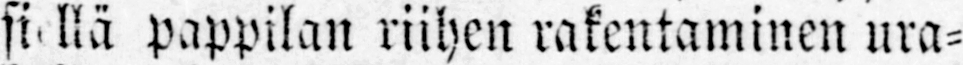siellä pappilan riihen rakentaminen ura-
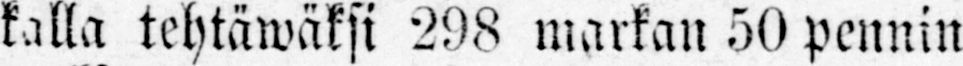kalla tehtäwäksi markan 50 pennin
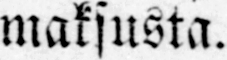maksusta.
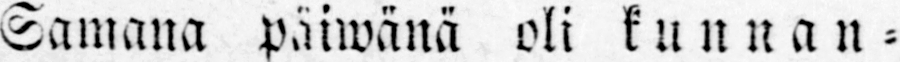Samana päiwänä oli kunnan-
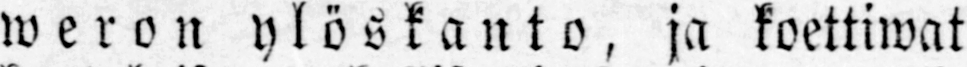weron ylöskanto, ja koettiwat
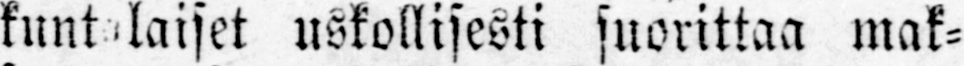kuntalaiset uskollisesti suorittaa mak-
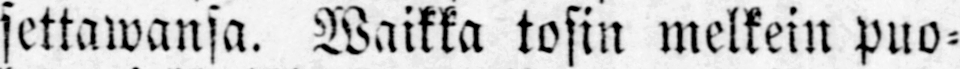settawansa. Waikka tosin melkein puo-
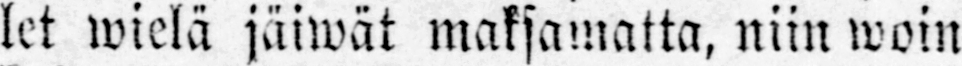let wielä jäiwät maksamatta, niin woin
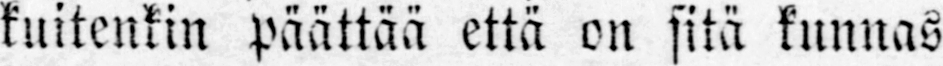kuitenkin päättää että on sitä kunnas-
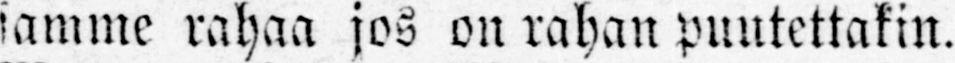samme rahaa jos on rahan puutettakin.
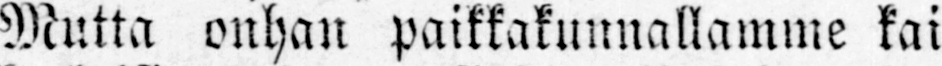Mutta onhan paikkakunnallamme kai-
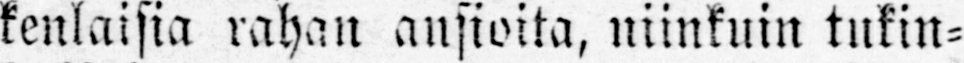kenlaisia rahan ansioita, niinkuin tukin-
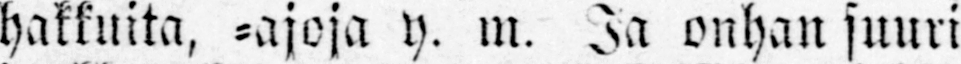hakkuita, -ajoja y. m. Ja onhan suuri
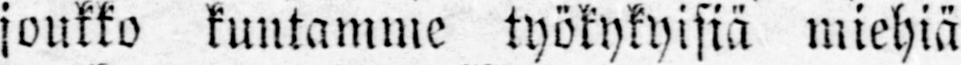joukko kuntamme työkykyisiä miehiä
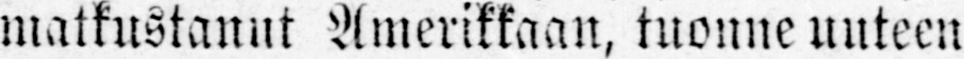matkustanut Amerikkaan, tuonne uuteen
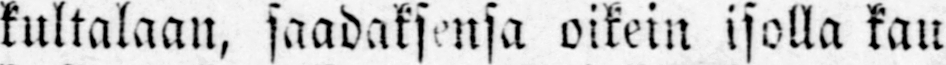kultalaan, saadaksensa oikein isolla kau
